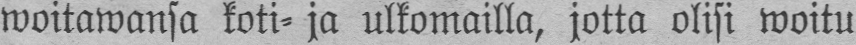woitawansa koti- ja ulkomailla, jotta olisi woitu
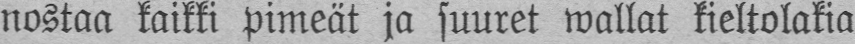nostaa kaikki pimeät ja suuret wallat kieltolakia
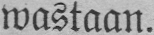wastaan.
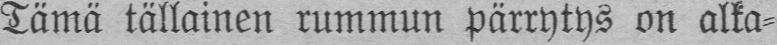Tämä tällainen rummun pärrytys on alka-
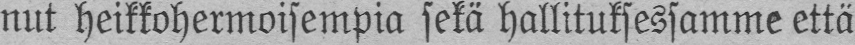nut heikkohermoisempia sekä hallituksessamme että
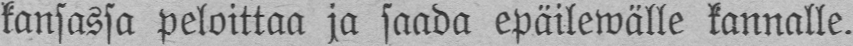kansassa peloittaa ja saada epäilewälle kannalle.
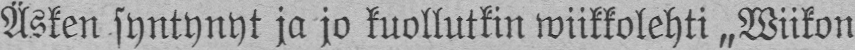Äsken syntynyt ja jo kuollutkin wiikkolehti „Wiikon
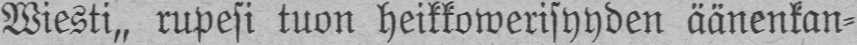Wiesti„ rupesi tuon heikkowerisyyden äänenkan-
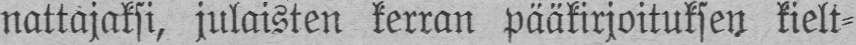nattajaksi, julaisten kerran pääkirjoituksen kielt-
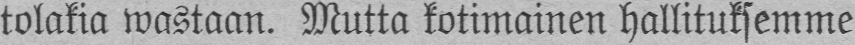tolakia wastaan. Mutta kotimainen hallituksemme
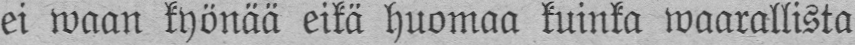ei waan kyönää eikä huomaa kuinka waarallista
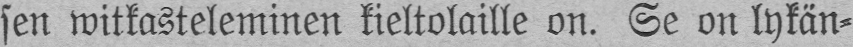sen witkasteleminen kieltolaille on. Se on lykän-
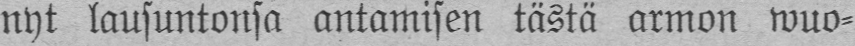nyt lausuntonsa antamisen tästä armon wuo-
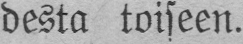desta toiseen.
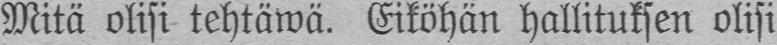Mitä olisi tehtäwä. Eiköhän hallituksen olisi
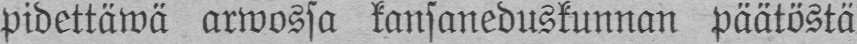pidettäwä arwossa kansaneduskunnan päätöstä
